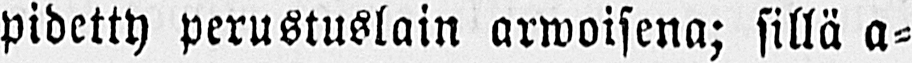pidetty perustuslain arwoisena; sillä a-
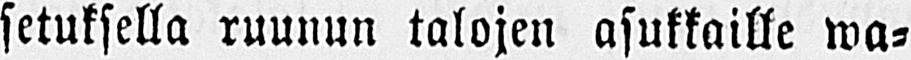setuksella ruunun talojen asukkaille wa-
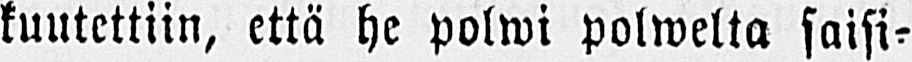kuutettiin, että he polwi polwelta saisi-
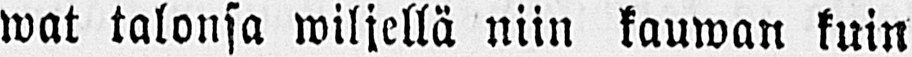wat talonsa wiljellä niin kauwan kuin
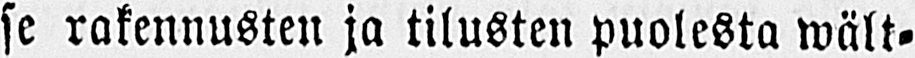se rakennusten ja tilusten puolesta wält-
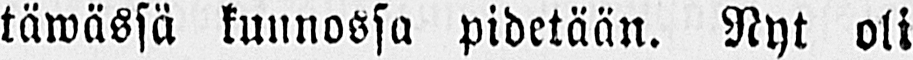täwässä kunnossa pidetään. Nyt oli
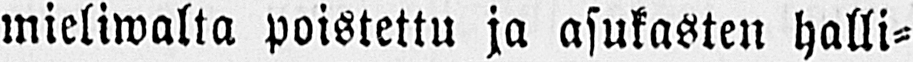mieliwalta poistettu ja asukasten halli-
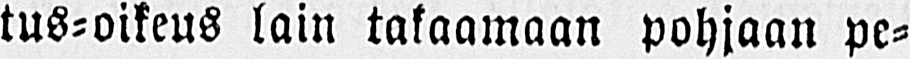tus-oikeus lain takaamaan pohjaan pe-
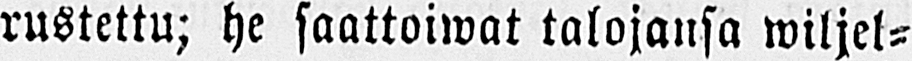rustettu; he saattoiwat talojansa wiljel-
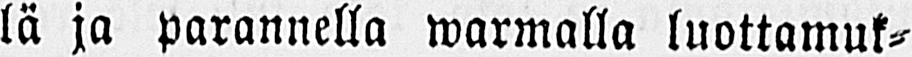lä ja parannella warmalla luottamuk-
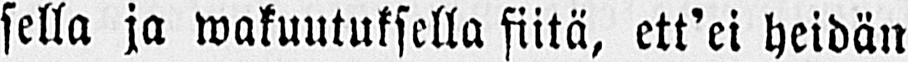sella ja wakuutuksella siitä, ett’ei heidän
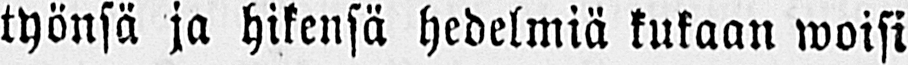työnsä ja hikensä hedelmiä kukaan woisi
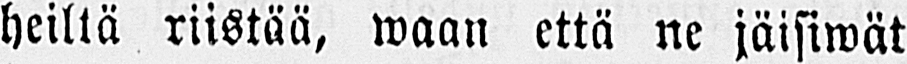heiltä riistää, waan että ne jäisiwät
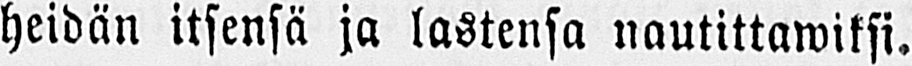heidän itsensä ja lastensa nautittawiksi.
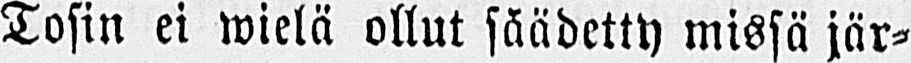Tosin ei wielä ollut säädetty missä jär-
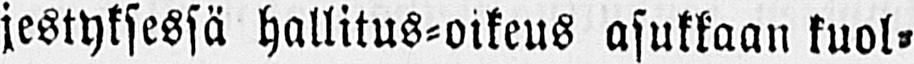jestyksessä hallitus-oikeus asukkaan kuol-
